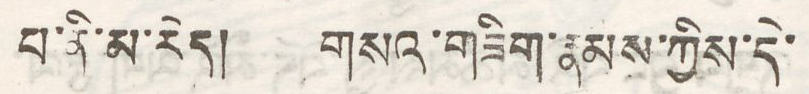པ་ནི་མ་རེད། གསའ་གཟིག་རྣམས་ཀྱིས་དེ་
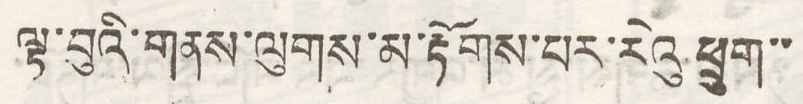ལྟ་བུའི་གནས་ལུགས་མ་རྟོགས་པར་རེའུ ཕྲུག་་
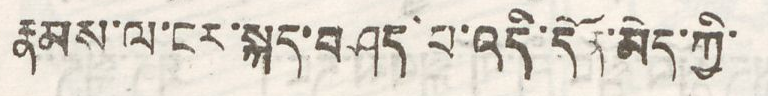རྣམས་ལ་ངར་སྐད་བཤད་པ་འདི་དོན་མེད་ཀྱི་
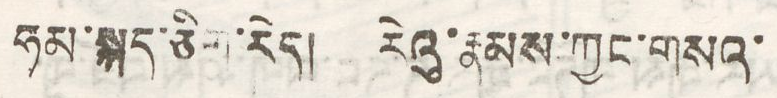ཧམ་སྐད་ཅིག་རེད། རེའུ་རྣམས་ཀྱང་གསའ་
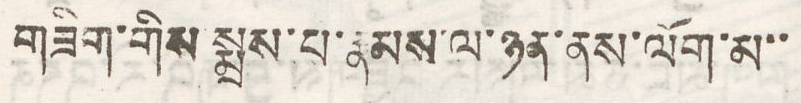གཟིག་གིས སྨྲས་པ་རྣམས་ལ་ཉན་ནས་ལོག་མ་་
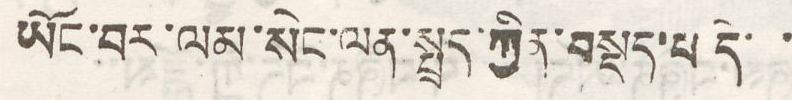ཡོང་བར་ལམ་སེང་ལན་སྤྲད་ཀྱིན་བསྡད་པ་དེ་་
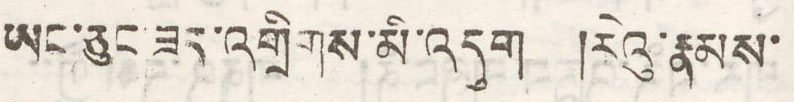ཡང་ཅུང་ཟད་འགྲིགས་མི་འདུག །རེའུ་རྣམས་
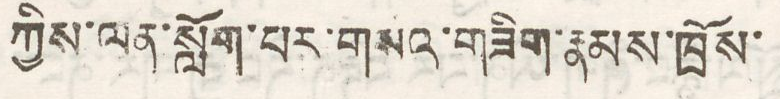ཀྱིས་ལན་སློག་པར་གསའ་གཟིག་རྣམས་ཁྲོས་
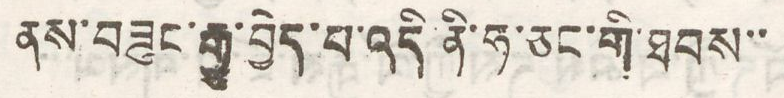ནས་བཟུང་རྒྱུ་བྱེད་པ་འདི་ནི་ཧ་ཅང་གི་ཐབས་་
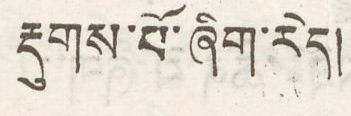རྡུགས་པོ་ཞིག་རེད།
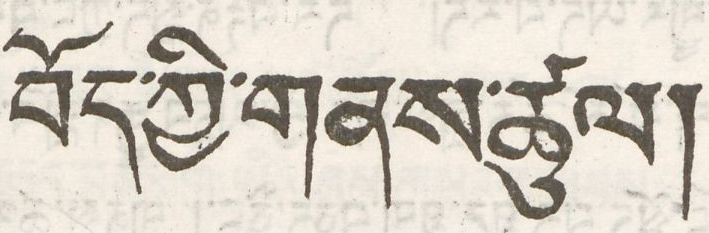བོད་ཀྱི་གནས་ཚུལ།
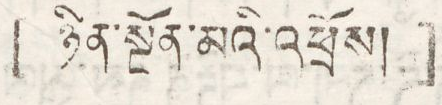[ ཉིན་སྔོན་མའི་འཕྲོས། ]
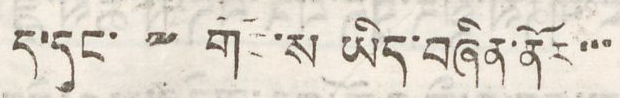ད་དུང་༸གོང་ས ཡིད་བཞིན་ནོར་་་
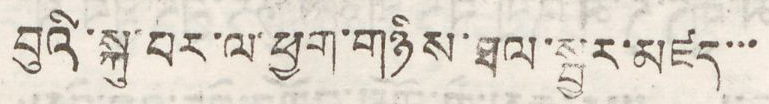བུའི་སྐུ་པར་ལ་ཕྱག་གཉིས་ཐལ་སྦྱར་མཛད་་་
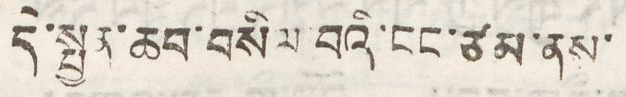དེ་སྤྱད་ཆབ་བསིལ བའི་ངང་ཙམ་ནས་
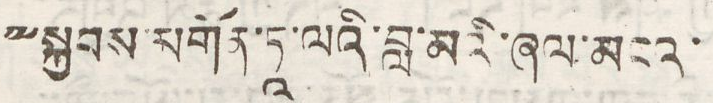༸སྐྱབས་མགོན་ཏྰ་ལའི་བླ་མའི་ཞལ་མངའ་
